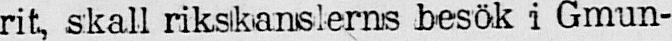rit, skall rikskanslerns besök i Gmun-
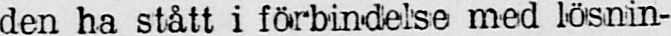den ha stått i förbindelse med lösnin-
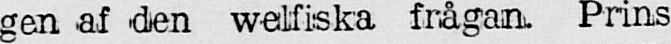gen af den welfiska frågan. Prins
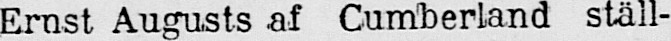Ernst Augusts af Cumherland ställ-
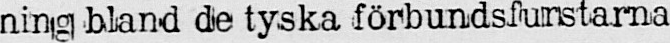ning bland de tyska förbundsfunstarna
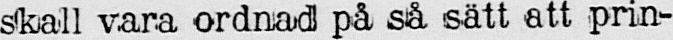skall vara ordnad på så sätt att prin-
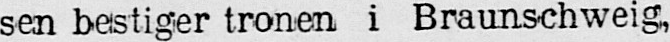sen bestiger tronen i Braunschweig,
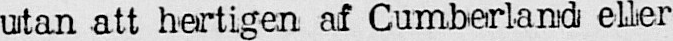utan att hertigen af Cumberlandi eller
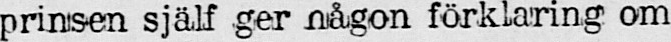prinsen själf ger någon förklaring om
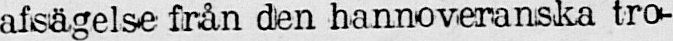afsägelse från den hannoveranska tro-
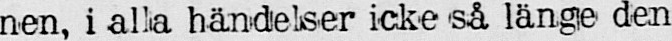nen, i alla händelser icke så länge den
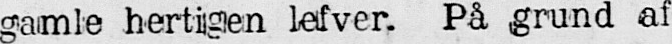gamle hertigen lefver. På grund af
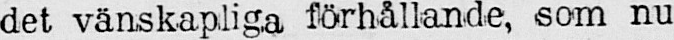det vänskapliga förhållande, som nu
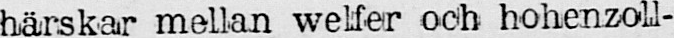härskar mellan welfer och hohenzoll-
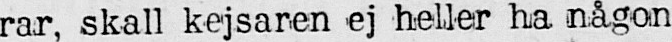rar, skall kejsaren ej heller ha någon
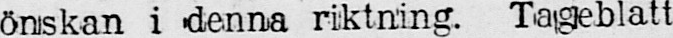önskan i denna riktning. Tageblatt
